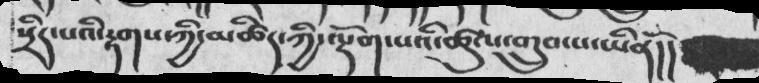སྲིད་པའི་རྟགས་ཀྱི་མཚིད་ཀྱི་ལྡོག་པའི་ཚུལ་གྲུབ་པ་ཡིནོ།།
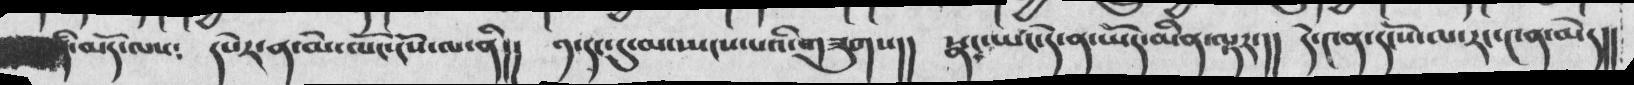ནི་མདོ་ལས༴  དཔེར་ན་མེ་ལོང་ངོས་ལ་ནི།།   ༡་དང་དུ་མ་སྤངས་པའི་གཟུགས།།    སྣང་ཡང་དེ་ན་ཡོད་མིན་ལྟར་།།   དེ་༤ན་དངོས་ལ་རང་༤ན་མེད།།
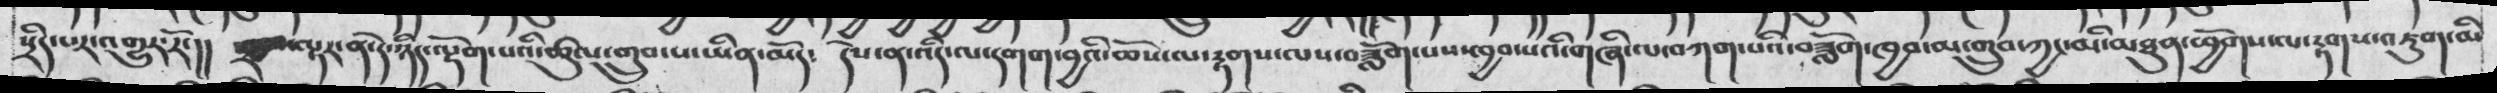སྲིད་པར་འགྱུར་རོ་།།   ༢་པ་ལྟར་ན་དེ་ཉིད་ལྡོག་པའི་ཚུལ་གྲུབ་པ་ཡིན་མོད༴  དེས་ན་འདི་ལ་དགག་བྱའི་ཆོས་ལ་རྟགས་ལས་བཟློག་པས་ཁྱབ་པའི་གཞི་ལ་བཀག་པའི་བཟློག་ཁྱབ་མ་གྲུབ་ཀྱང་མི་མཐུན་ཕྱོགས་ལ་རྟགས་འཇུག་མི་
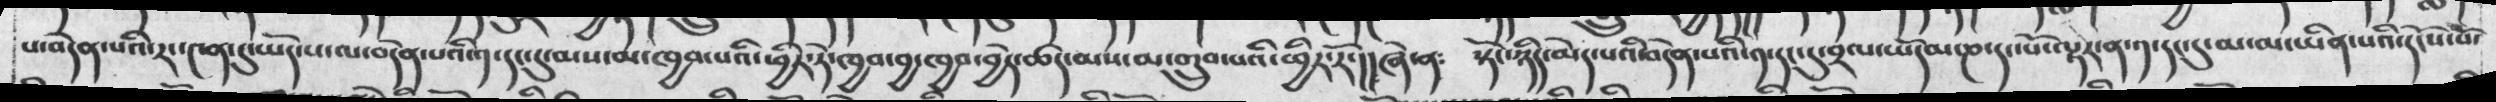པ་བདེན་པའི་རང་༤ན་དུ་ཡོད་པ་ལ་བདེན་པའི་༡་དང་དུ་མས་མ་ཁྱབ་པའི་ཕྱིར་ཏེ་ཁྱབ་བྱ་ཁྱབ་བྱེད་ཚད་མས་མ་གྲུབ་པའི་ཕྱིར་རོ་།།  ཞེ་ན༴  སྟོང་ཉིད་མེད་པའི་བདེན་པའི་༡་དང་དུ་བྲལ་ཡོདམ་ཎ་དང་པོ་ལྟར་ན་༡་དང་དུ་མ་མ་ཡིན་པའི་དངོས་པོ་
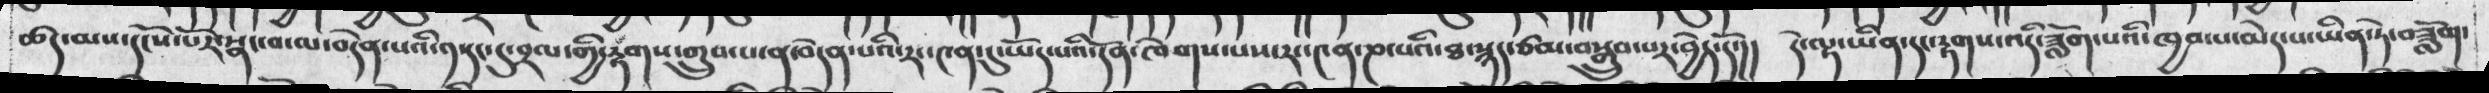ཚད་མས་དངོས་པོར་སྣང་བ་ལ་བདེན་པའི་༡་དང་དུ་བྲལ་གྱི་རྟགས་གྲུབ་པ་ན་བདེན་པའི་རང་༤ན་དུ་ཡོད་པའི་དོན་ཁེགས་པས་རང་༤ན་ཎ་པའི་ཐ་སྙད་ཙམ་བསྒྲུབ་པར་བྱེད་དོ་།།   དེ་ལྟ་ཡིན་དང་རྟགས་འདི་ཟློག་པའི་ཁྱབ་པ་མེད་པ་ཡིན་ཏེ་བཟློག་
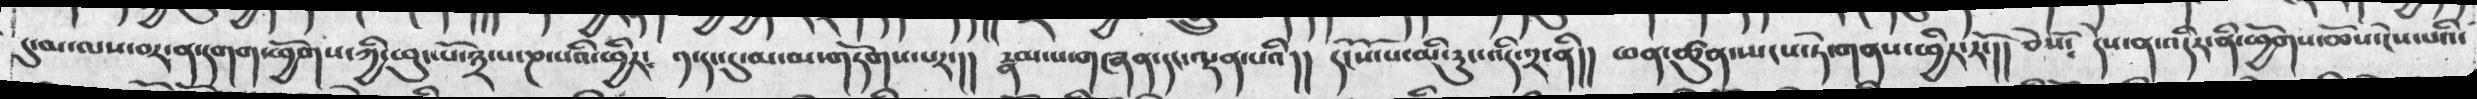དུ་མ་ལས་བར་ན་དགག་ཕྱོགས་ཀྱི་ཕུང་པོ་༣་པ་ཎ་པའི་ཕྱིར༴  ༡་དང་དུ་མ་མ་གཏོགས་པར་།།   རྣམ་པ་གཞན་དང་ལྡན་པའི།།  དངོས་པོ་མི་རུང་འདི་༢་ནི།།   ཕན་ཚུན་སྤངས་ཏེ་གནས་ཕྱིར་རོ་།།   ཅེསོ༴   དེས་ན་འདིར་ནི་ཕྱོགས་ཆོས་ངེས་པའི་
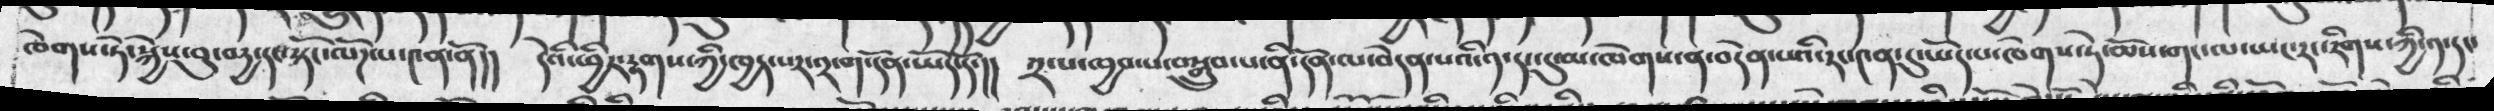ཁེགས་ཏེ་སྐྱེས་བུ་བདྱ་དང་སྟོང་ལོཌ་པ་༤ན་ནོ།། དེའི་ཕྱིར་རྟགས་ཀྱི་ཁྱད་པར་༢་ག་དོན་ཡོད་དོ་།། ༢་པ་ཁྱབ་པ་བསྒྲུབ་པ་ནི་དོན་ལ་བདེན་པའི་༡་དང་དུ་མ་ཁེགས་ན་བདེན་པའི་རང་༤ན་དུ་ཡོད་པ་ཁེགས་ཏེ་ཆོས་གང་ལ་ཡང་རང་རིགས་ཀྱི་༡་དང་
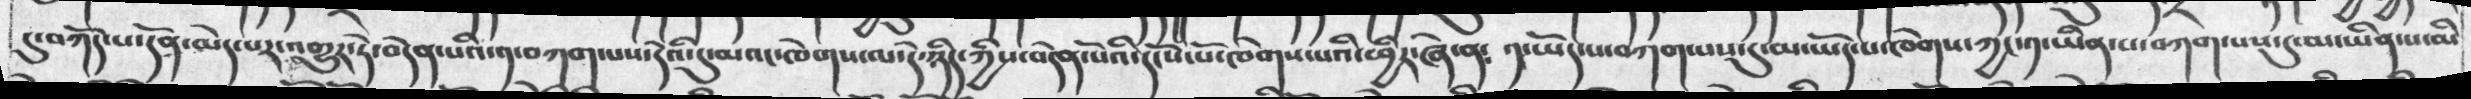དུ་བཀོད་པ་དོན་མེད་པར་འགྱུར་ཏེ་བདེན་པའི་༡་བཀག་པས་དེའི་དུ་མའང་ཁེགས་ལ་དེ་ཉིད་ཀྱིས་བདེན་པའི་དངོས་པོ་ཁེགས་པའི་ཕྱིར་ཞེ་ན༴ ༡་ཡོད་པ་བཀག་པས་དུ་མ་ཡོད་པ་ཁེགས་ཀྱང་༡་ཡིན་པ་བཀག་པས་དུ་མ་ཡིན་པ་མི
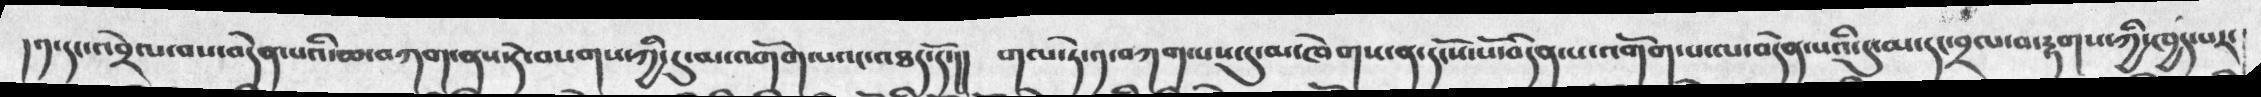།༡་དང་འབྲེལ་བས་བདེན་པའི་ཆ་བཀག་ནས་དེ་བསགས་ཀྱི་དུ་མ་འགོག་པའང་འཐད་དོ་།། གལ་ཏེ་༡་བཀག་པས་དུ་མ་ཁེགས་ན་དངོས་པོ་བདེན་པ་འགོག་པ་ལ་བདེན་པའི་དུ་མ་དང་བྲལ་བ་རྟགས་ཀྱི་ཁྱད་པར་
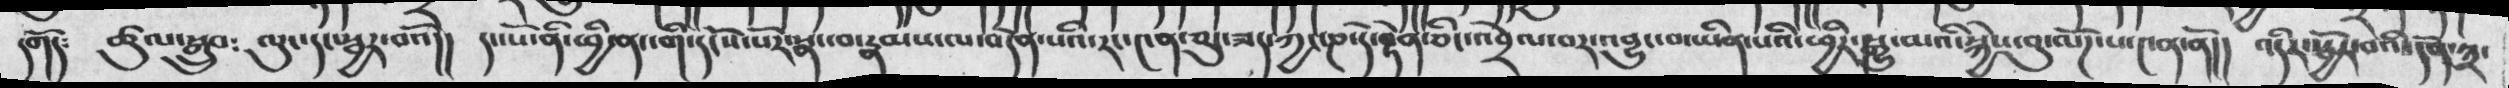དགོད༴ ཚུལ་སྒྲུབ༴ ལུང་དང་སྦྱར་བའོ།། དང་པོ་ནི་ཕྱི་ནང་གི་དངོས་པོར་སྣང་བ་རྣམས་ལ་བདེན་པའི་རང་༤ན་མུ་ཟད་ཀྱང་ཎ་དེ་རྟེན་ཅིང་འབྲེལ་བར་འབྱུང་བ་ཡིན་པའི་ཕྱིར་སྒྱུ་མའི་སྐྱེས་བུ་ལོཌ་པ་༤ན་ནོ།། འདིར་སྦྱོར་བའི་དོན་༣་
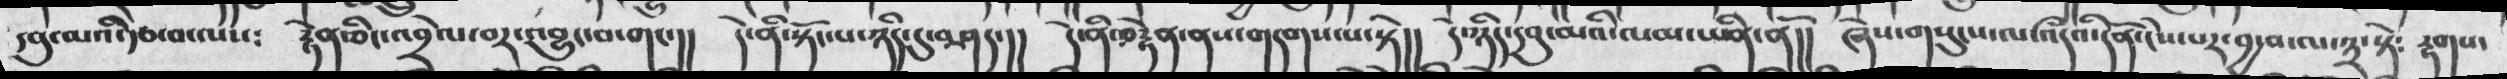དབུ་མའི་རྩ་བ་ལས༴ རྟེན་ཅིང་འབྲེལ་བར་འབྱུང་བ་གང་།། དེ་ནི་སྟོང་པ་ཉིད་དུ་བཤད་།། དེ་ནི་བརྟེན་ནས་གདགས་པ་སྟེ།། དེ་ཉིད་དབུ་མའི་ལམ་ཡིན་ནོ།། ཞེས་གསུངས་ལ་འདའི་དོན་ངེས་པར་བྱ་བ་ལ་༣་སྟེ༴ རྟགས་
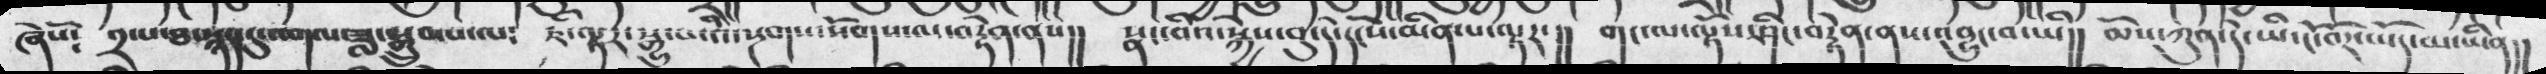ཞེསོ༴  ༢་པ་ཐ་སྙད་དུ་འགལ་ཟླ་སྒྲུབ་པ་ལ༴   ཇི་ལྟར་སྒྱུ་མའི་སྔགས་སོགས་ལ་བརྟེན་ནས།།   སྣང་བའི་སྐྱེས་བུ་དེ་དངོས་མིན་པ་ལྟར་།།   གང་ལ་ལྟོས་ཤིང་བརྟེན་ནས་འབྱུང་བ་ཡི།།   མོས་ཀུན་དེ་ཡི་ངོ་བོར་ཡོད་མ་ཡིན།།
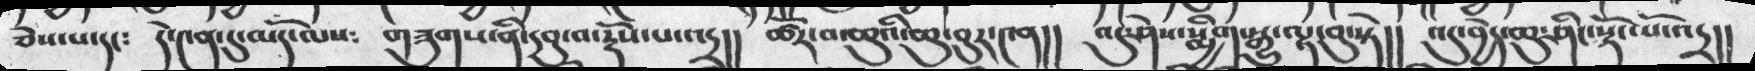ཅེས་པ་དང༴ དེ་༤ན་དུ་མདོ་ལས༴ གཟུགས་ནི་དབུ་བ་རྡོས་པ་འདྲ།། ཚོར་བ་ཆུའི་ཆུ་བུར་༤ན།། འདུ་ཤེས་སྨྱིག་སྒྱུ་ལྟ་བུ་སྟེ།། འདུ་བྱེད་ཆུ་ཤིང་སྡོང་པོ་འདྲ།།
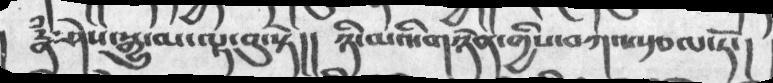རྣཾ་ཤེས་སྒྱུ་མ་ལྟ་བུ་སྟེ།།  ཉི་མའི་གཉེན་གྱིས་བཀའ་སྩལ་ཏོ་།
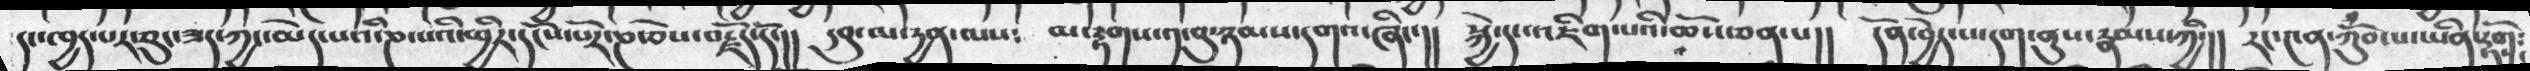དང་ཁྱད་པར་ཅུང་ཟད་མེད་པའི་ཎ་པའི་ཕྱིར་དངོས་པར་ཎ་ཅེས་བརྗོད་དོ་།།  དབུ་མ་དྱན་ལས༴  མ་རྟགས་༡་པུ་ཉམས་དགའ་ཞིང་།།  སྐྱེ་དང་འཇིག་པའི་ཆོས་ཅན་པ།།  དོན་བྱེད་པ་དག་ནུས་རྣམས་ཀྱི་།།   རང་༤ན་ཀོུབ་པ་ཡིན་རྟོགས༴
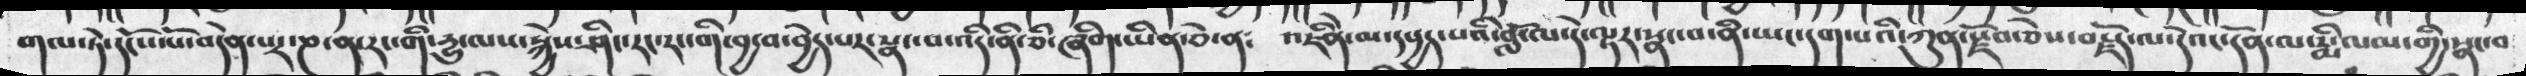གལ་ཏེ་དངོས་པོ་བདེན་པར་ཎ་ན་རང་གི་དྱུ་ལས་སྐྱེས་ཤིང་རང་རང་གི་བྱ་བ་བྱེད་པར་སྣང་བ་འདི་ནི་ཅི་ཞིག་ཡིན་ཅེ་ན༴ འཇིེན་མ་དཔྱད་པའི་བློ་ལ་དེ་ལྟར་སྣང་བ་ནི་ཡང་དག་པའི་ཀུན་སྫོབ་ཅེས་བརྗོད་ལ་དེའང་དོན་རྨི་ལམ་གྱི་སྣང་བ
